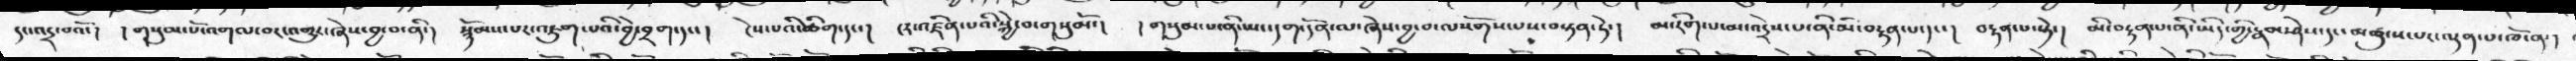དང་འདྲ་བའོ་།   །གསུམ་པོ་འགལ་བར་འགྱུར་ཞེས་བྱ་བ་ནི་།  སྙོམས་པར་འཇུག་པའི་བྱེ་བྲག་དང་།   ངེས་པའི་ཚིག་དང་།  ངར་འཛིན་པའི་སྐྱེ་བ་གསུམོ་།   །གསུམ་པ་ནི་ཡང་དག་དོན་ལ་ཞེས་བྱ་བ་ལསོགས་པས་བསྟན་ཏེ་།   མ་རིག་པ་མ་འདྲེས་པ་ནི་མི་བརྟན་པ་དང་།  བརྟན་པ་སྟེ།  མི་བརྟན་པ་ནི་ཡིད་གྱི་རྣམ་ཤེས་དང་མཚུངས་པར་ལྡན་པ་ཁོ་ན་།
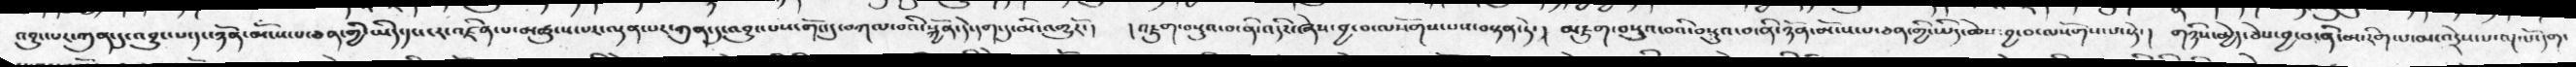འབྱུང་པར་ཀུན་དུ་འབྱུང་པ་དང་ཉོན་མོངས་པ་ཅན་གྱི་ཡིད་དང་ངར་འཛིན་པ་མཚུངས་པར་ལྡན་པར་ཀུན་དུ་འབྱུང་པས་གོང་དུ་བཀལ་བའི་སྐྱོན་་དེ་དག་དུ་མི་འགྱུརོ་།   །འཇུག་བསྡུའ་བ་ནི་འདིར་ཞེས་བྱ་བ་ལསོགས་པས་བསྟན་ཏེ་།  མཇུག་བསྡུའ་བའི་བསྡུའ་བ་ནི་ཉོན་མོངས་པ་ཅན་གྱི་ཡིད་ཆེས་ བྱ་བ་ལསོགས་པ་སྟེ་།  གཉིས་མྱེད་ཅེས་བྱ་བ་ནི་མ་རིག་པ་མ་འདྲེས་པ་ལྔ་པོ་དག་
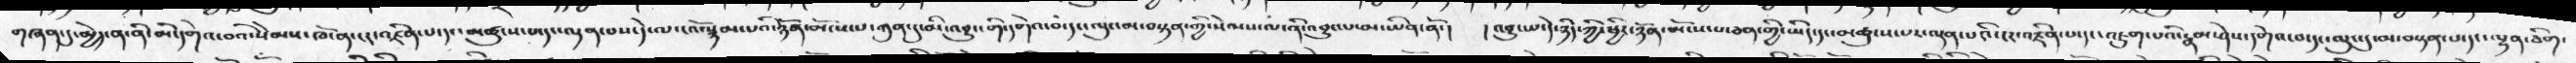གཞན་དུ་མྱེད་ན་ནི་མི་དགེའ་བའི་སེམས་ཁོ་ན་ངར་འཛིན་པ་དང་མཚུངས་པ་དང་ལྡན་པས་དེ་ལ་ངའོ་སྙམ་པའི་ཉོན་མོངས་པ་ཀུན་དུ་མི་འབྱུང་གི་དགེའ་བ་དང་ལུང་མ་བསྟན་གྱི་སེམས་ལ་ནི་འབྱུང་པ་མ་ཡིན་ནོ་།  །འབྱུང་པ་དེ་ཉིད་ཀྱི་ཕྱིར་ཉོན་མོངས་པ་ཅན་གྱི་ཡིད་དང་མཚུངས་པར་ལྡན་པའི་ངར་འཛིན་པ་དང་འཇུག་པའི་རྣམ་ཤེས་དགེའ་བ་དང་ལུང་དུ་མ་བསྟན་པ་དང་ལྷན་ཅིག་
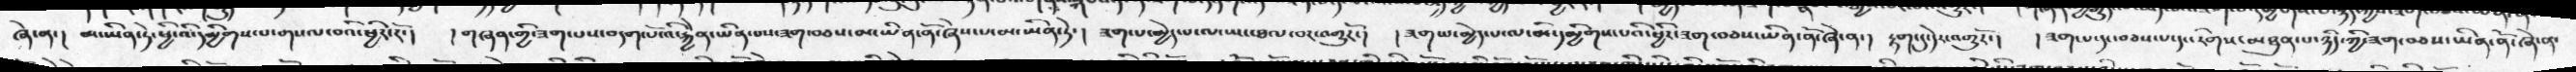ཞེ་ན་།  མ་ཡིན་ཏེ་ཕྱི་འི་དམྱིགས་པ་གསལ་བའི་ཕྱིར་རོ་།  །གཞན་གྱི་ཟག་པས་བདག་པོ་འི་རྐྱེན་ཡིན་པས་ཟག་བཅས་མ་ཡིན་ནོ་ཞེས་པ་མ་ཡིན་ཏེ་།   ཟག་པ་མྱེད་པ་ལ་ཡང་ཐལ་བར་འགྱུརོ་།  ཟག་པ་མྱེད་པ་ལ་མི་དམྱིགས་པའི་ཕྱིར་ཟག་བཅས་ཡིན་ནོ་ཞེ་ན་།  རྟག་དུ་དེར་འགྱུརོ་།  །ཟག་པ་དང་བཅས་པ་དང་རིགས་མཐུན་པ་ཉིད་ཀྱི་ཟག་བཅས་ཡིན་ནོ་ཞེ་ན་
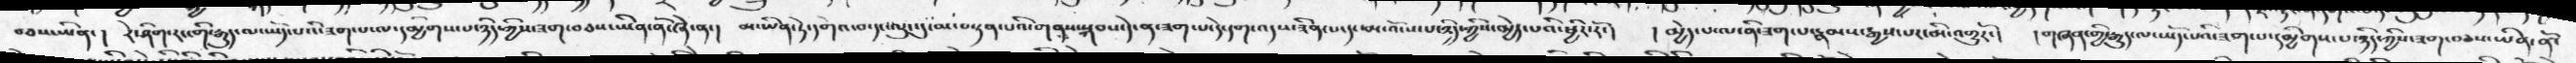བཅས་ཡིན་།  རེ་ཤིག་རང་གི་རྒྱུད་ལ་ཡོད་པའི་ཟག་པ་ལ་དམྱིགས་པ་ཉིད་ཀྱིས་ཟག་བཅས་ཡིན་ནོ་ཞེ་ན་།  མ་ཡིན་ཏེ་དགེའ་བ་དང་ལུང་དུ་མ་བསྟན་པའི་གནས་སྐབས་དེ་ན་ཟག་པ་དེ་དག་འདས་ཟིན་པ་དང་མ་འོངས་པ་ཉིད་ཀྱིས་མྱེད་པའི་ཕྱིར་རོ་།  །མྱེད་པ་ལ་ནི་ཟག་པ་རྣམས་རྒྱས་པར་མི་འགྱུརོ་།  །གཞན་གྱི་རྒྱུད་ལ་ཡོད་པའི་ཟག་པ་དམྱིགས་པ་ཉིད་ཀྱིས་ཟག་བཅས་ཡིན་ནོ་
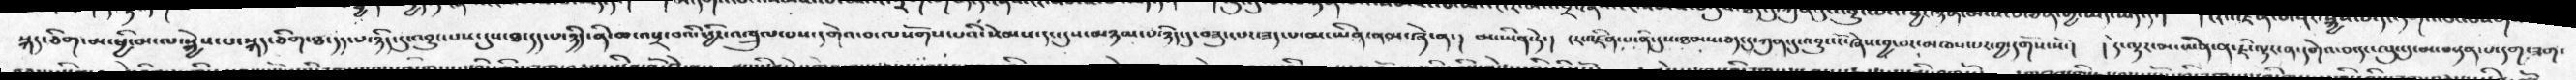སྐད་ཅིག་མ་ཕྱི་མ་ལ་སྐྱེས་པ་སྐད་ཅིག་ཐ་དད་པ་ཉིད་དུ་འབྱུང་པས་དུས་ཐ་དད་པ་ཉིད་ནི་ཆ་འཕྲ་བའི་ཕྱིར་འཁྲུལ་པས་དགེའ་བ་ལསོགས་པའི་སེམས་དང་དུས་མཉམ་པ་ཉིད་དུ་བཟུ་དཔར་ཟད་པ་མ་ཡིན་ནམ་ཞེ་ན་།  མ་ཡིན་ཏེ་།  ངར་འཛིན་པ་ནི་དུས་ཐམས་ཅད་དུ་ཀུན་དུ་འབྱུང་ངོ་ཞེས་བྱ་བར་མཁས་པར་བྱ་དགོས་སོ་།  །དེ་ལྟར་མ་ཡིན་ན་ཇི་ལྟར་ན་དགེའ་བ་དང་ལུང་དུ་མ་བསྟན་པ་དག་ཟག་
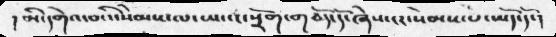།  མི་དགེའ་བའི་སེམས་ལ་ཡང་ང་སྲོག་གཅོད་དོ་ཞེས་ངར་སེམས་པ་ཡོད་དོ་།
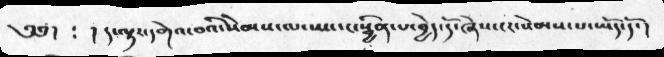༄༅།  ༴ །ད་ལྟར་དགེའ་བའི་སེམས་ལ་ཡང་ང་སྦྱིན་པ་བྱེད་དོ་ཞེས་ངར་སེམས་པ་ཡོད་དོ་།
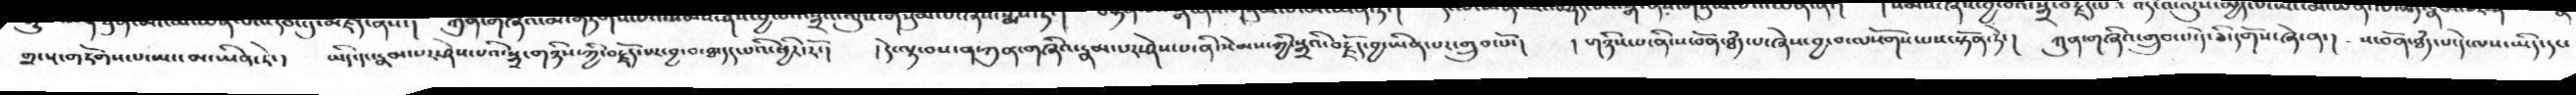གྲ་སྔ་གཏོགས་པ་ཡང་མ་ཡིན་ཏེ་།  ཡིད་དང་རྣམ་པར་ཤེས་པའི་སྒྲ་གཉིས་ཀྱི་བརྗོད་པར་བྱ་བ་ཐ་དད་པའི་ཕྱིར་ཪོ་།   །དེ་ལྟ་བས་ན་ཀུན་གཞིའ་རྣམ་པར་ཤེས་པ་ནི་སེམས་ཀྱི་སྒྲའི་བརྗོད་བྱ་ཡིན་པར་གྲུབ་པོ་།  །གཉིས་པ་ནི་ས་བོན་ཐཾད་པ་ཞེས་བྱ་བ་ལསོགས་པས་སྟོན་ཏེ་།  ཀུན་གཞིའ་གྲུབ་པ་དེ་ཅི་དགོས་ཞེ་ན་།  ས་བོན་ཐཾད་པ་དེ་ལས་ཡིད་དང་
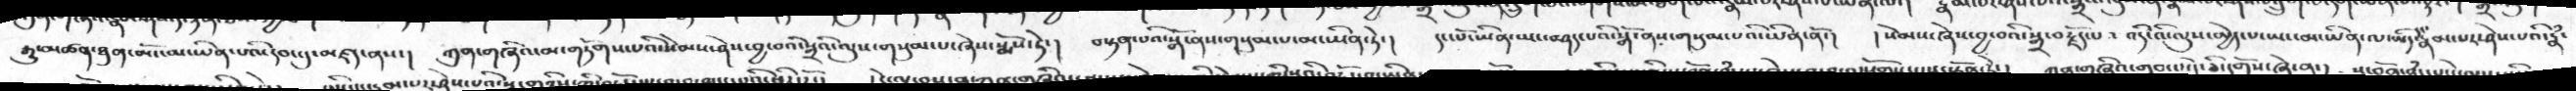རྒྱུ་མཚན་ཐུན་མོང་མ་ཡིན་པའི་དབང་དུ་མཛད་ནས་།   ཀུན་གཞིའ་མ་གཏོགས་པའི་སེམས་ཤེས་བྱ་བའི་སྒྲའི་ལུས་གསུམ་པ་ཞེས་སྨོས་ཏེ་།   བསྟན་པའི་སྒོ་ནས་གསུམ་པ་མ་ཡིན་ཏེ་།  དང་པོ་ཡིན་ཡང་བཤད་པའི་སྒོ་ནས་གསུམ་པའི་ཡིན་ནོ་།  །སེམས་ཞེས་བྱ་བའི་སྒྲ་བརྗོད་པ་ འདི་འི་ལུས་མྱེད་པ་ཡང་མ་ཡིན་ལ་ཡིད་དང་རྣམ་པར་ཤེས་པའི་རྣཾ་
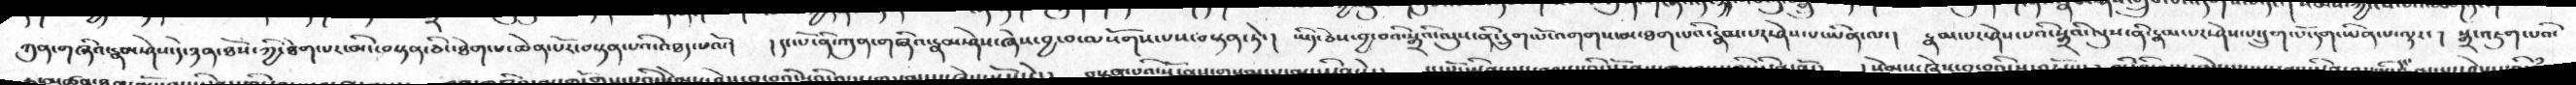ཀུན་གཞའི་རྣམ་ཤེས་དེ་ཉན་ཐོས་ཀྱི་ཐེག་པར་མིང་བསྟན་ཅིང་ཐེག་པ་ཆེན་པོར་བསྟན་པའི་འཐད་པའོ།  །དང་པོ་ནི་ཀུན་གཞིའ་རྣམ་ཤེས་ཞེས་བྱ་བ་ལསོགས་པས་བསྟན་ཏེ།  ཡིད་ཅེས་བྱ་བའི་སྒྲའི་ལུས་ནི་དྲུག་པོ་འགགས་མ་ཐག་པའི་རྣམ་པར་ཤེས་པ་ཡིན་ལ་།  རྣམ་པར་ཤེས་པའི་སྒྲའི་ལུས་ནི་རྣམ་པར་ཤེས་པ་དྲུག་པོ་དག་ཡིན་པ་ལྟར་།  སྒྲ་འཇུག་པའི་
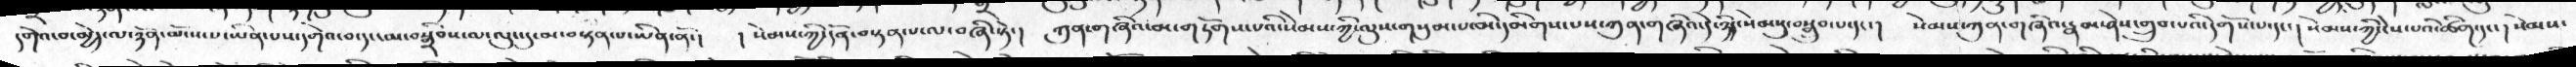དགེའ་བ་མྱེད་ལ་ཉོན་མོངས་པ་ཡིན་པས་དགེའ་བ་དང་མ་བསྒྲིབས་ལ་ལུང་དུ་མ་བསྟན་པ་ཡིན་ནོ་།  །སེམས་ཀྱི་དོན་བསྟན་པ་ལ་བཞི་སྟེ་།  ཀུན་གཞིའ་མ་གཏོགས་པའི་སེམས་ཀྱི་ལུས་གསུམ་པ་མི་དམིགས་པས་ཀུན་གཞིའ་དེ་ཉིད་སེམསུ་བསྒྲུབ་པ་དང་།  སེམས་ཀུན་གཞིའ་རྣམ་ཤེས་གྲུབ་པའི་དགོས་པ་དང་།  སེམས་ཀྱི་ངེས་པའི་ཚིག་དང་།  སེམས་
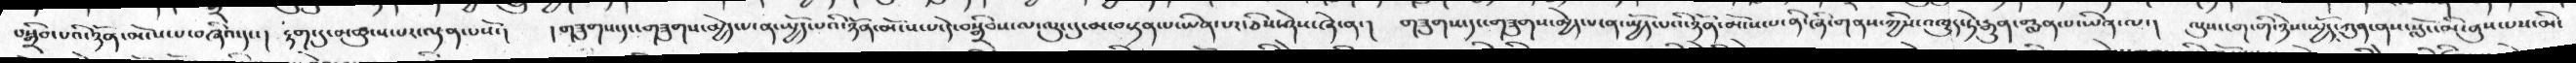བསྒྲིབ་པའི་ཉོན་མོངས་པ་བཞིའ་དང་།  རྟག་དུ་མཚུངས་པར་ལྡན་པསོ་།  །གཟུགས་དང་གཟུགས་མྱེད་པ་ན་སྤྱོད་པའི་ཉོན་མོངས་པ་དེ་བསྒྲིབས་ལ་ལུང་དུ་མ་བསྟན་པ་ཡིན་པར་ཅིས་ཤེས་ཞེ་ན་།  གཟུགས་དང་གཟུགས་མྱེད་པ་ན་སྤྱོད་པའི་ཉོན་མོངས་པ་ནི་ཞི་གནས་ཀྱིས་འཁྱུར་ཏེ་རྒྱུན་བརླན་པ་ཡིན་ལ་།   ལུས་ངག་གི་ཉེས་སྤྱོད་ཀུན་ནས་སློང་མི་ནུས་པས་མི་
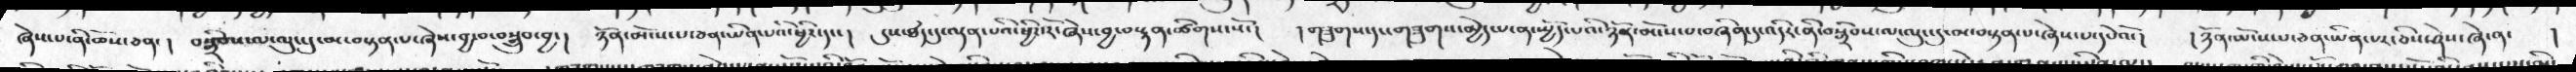ཞེས་པ་ནི་ཆོས་ཅན་།  བསྒྲིབས་ལ་ལུང་དུ་མ་བསྟན་པ་ཞེས་བྱ་བ་བསྒྲུབ་བྱ་།  ཉོན་མོངས་པ་ཅན་ཡིན་པའི་ཕྱིར་དང་།  དུས་ཐདཾ་དུ་ལྡན་པའི་ཕྱིར་རོ་ཞེས་བྱ་བ་སྟན་ཚིགས་སོ་།  །གཟུགས་དང་གཟུགས་མྱེད་པ་ན་སྤྱོད་པའི་ཉོན་མོངས་པ་བཞིན་དུ་འདིར་ནི་བསྒྲིབས་ལ་ལུང་དུ་མ་བསྟན་པ་ཞེས་པ་དཔེའོ་།  །ཉོན་མོངས་པ་ཅན་ཡིན་པར་ཅིས་ཤེས་ཞེ་ན་  །
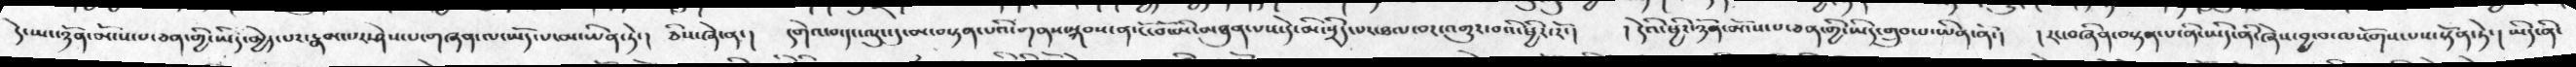དེ་ཡང་ཉོན་མོངས་པ་ཅན་གྱི་ཡིད་མྱེད་པར་རྣམ་པར་ཤེས་པ་གཞན་ལ་ཡོད་པ་མ་ཡིན་ཏེ་།  ཅིས་ཞེ་ན་།  དགེའ་བ་དང་ལུང་དུ་མ་བསྟན་པའི་གནས་སྐབས་ན་ངོ་བོ་མི་མཐུན་པས་དེ་མི་སྲིད་པར་ཐལ་བར་འགྱུར་བའི་ཕྱིར་རོ་།  །དེའི་ཕྱིར་ཉོན་མོངས་པ་ཅན་གྱི་ཡིད་གྲུབ་པ་ཡིན་ནོ་།  །རང་བཞིན་བསྟན་པ་ནི་ཡིད་ནི་ཞེས་བྱ་བ་ལསོགས་པས་སྟོན་ཏེ་།  ཡིད་ནི་
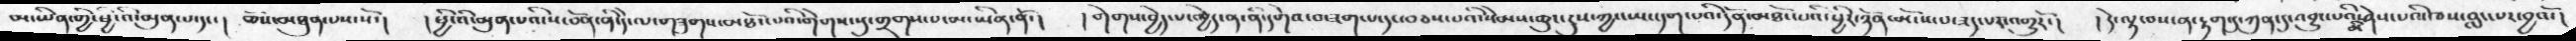མ་ཡིན་གྱི་ཕྱི་འི་མུན་པ་དང་།   ཆོས་མཐུན་པས་སོ་།  །ཕྱི་འི་མུན་པའི་ས་བོན་ནི་དེ་ལ་གཟུགས་མཐོང་པའི་གེགས་སུ་གྲགས་པ་མ་ཡིན་ནོ་།  །གེགས་བྱེད་པ་མྱེད་ན་ནི་དགེའ་བ་ཟག་པ་དང་བཅས་པའི་སེམས་ཆུང་དུས་ཀྱང་ཡང་དག་པའི་དོན་མཐོང་པའི་ཕྱིར་ཉོན་མོངས་པ་ཟད་པར་འགྱུར་ོ།  །དེ་ལྟ་བས་ན་རྟག་དུ་ཀུན་དུ་འབྱུང་པའི་མི་ཤེས་པའི་ཁས་བླང་པར་བྱའོ་།
